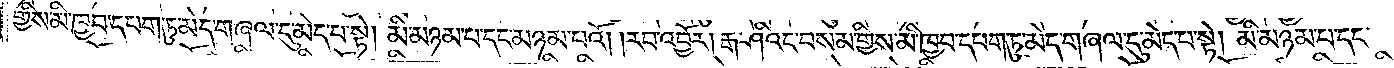གྱིས་མི་ཁྱབ་དཔག་ཏུ་མེད་གཞལ་དུ་མེད་པ་སྟེ། མི་མཉམ་པ་དང་མཉམ་པའོ། །རབ་འབྱོར། རྒ་ཤིའང་བསམ་གྱིས་མི་ཁྱབ་དཔག་ཏུ་མེད་གཞལ་དུ་མེད་པ་སྟེ། མི་མཉམ་པ་དང་
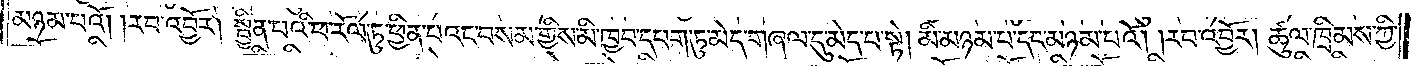མཉམ་པའོ། །རབ་འབྱོར། སྦྱིན་པའི་ཕ་རོལ་ཏུ་ཕྱིན་པའང་བསམ་གྱིས་མི་ཁྱབ་དཔག་ཏུ་མེད་གཞལ་དུ་མེད་པ་སྟེ། མི་མཉམ་པ་དང་མཉམ་པའོ། །རབ་འབྱོར། ཚུལ་ཁྲིམས་ཀྱི་
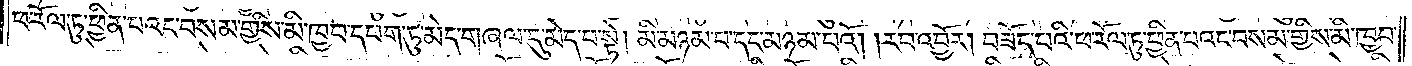ཕ་རོལ་ཏུ་ཕྱིན་པའང་བསམ་གྱིས་མི་ཁྱབ་དཔག་ཏུ་མེད་གཞལ་དུ་མེད་པ་སྟེ། མི་མཉམ་པ་དང་མཉམ་པའོ། །རབ་འབྱོར། བཟོད་པའི་ཕ་རོལ་ཏུ་ཕྱིན་པའང་བསམ་གྱིས་མི་ཁྱབ་
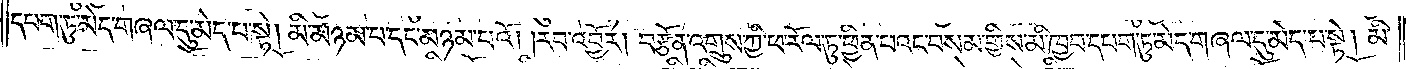དཔག་ཏུ་མེད་གཞལ་དུ་མེད་པ་སྟེ། མི་མཉམ་པ་དང་མཉམ་པའོ། །རབ་འབྱོར། བརྩོན་འགྲུས་ཀྱི་ཕ་རོལ་ཏུ་ཕྱིན་པའང་བསམ་གྱིས་མི་ཁྱབ་དཔག་ཏུ་མེད་གཞལ་དུ་མེད་པ་སྟེ། མི་
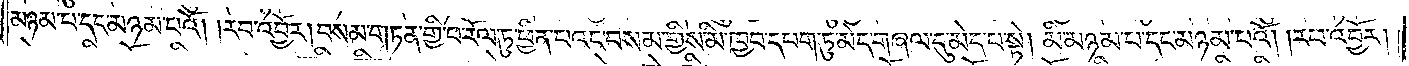མཉམ་པ་དང་མཉམ་པའོ། །རབ་འབྱོར། བསམ་གཏན་གྱི་ཕ་རོལ་ཏུ་ཕྱིན་པའང་བསམ་གྱིས་མི་ཁྱབ་དཔག་ཏུ་མེད་གཞལ་དུ་མེད་པ་སྟེ། མི་མཉམ་པ་དང་མཉམ་པའོ། །རབ་འབྱོར།
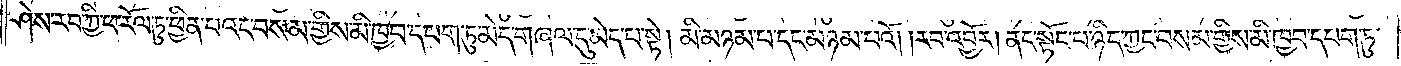ཤེས་རབ་ཀྱི་ཕ་རོལ་ཏུ་ཕྱིན་པའང་བསམ་གྱིས་མི་ཁྱབ་དཔག་ཏུ་མེད་གཞལ་དུ་མེད་པ་སྟེ། མི་མཉམ་པ་དང་མཉམ་པའོ། རབ་འབྱོར། ནང་སྟོང་པ་ཉིད་ཀྱང་བསམ་གྱིས་མི་ཁྱབ་དཔག་ཏུ་
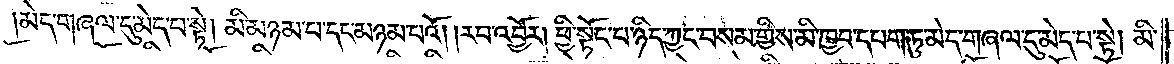མེད་གཞལ་དུ་མེད་པ་སྟེ། མི་མཉམ་པ་དང་མཉམ་པའོ། །རབ་འབྱོར། ཕྱི་སྟོང་པ་ཉིད་ཀྱང་བསམ་གྱིས་མི་ཁྱབ་དཔག་ཏུ་མེད་གཞལ་དུ་མེད་པ་སྟེ། མི་
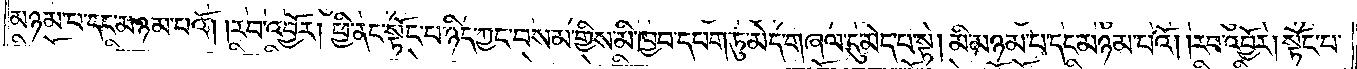མཉམ་པ་དང་མཉམ་པའོ། །རབ་འབྱོར། ཕྱི་ནང་སྟོང་པ་ཉིད་ཀྱང་བསམ་གྱིས་མི་ཁྱབ་དཔག་ཏུ་མེད་གཞལ་དུ་མེད་པ་སྟེ། མི་མཉམ་པ་དང་མཉམ་པའོ། །རབ་འབྱོར། སྟོང་པ་
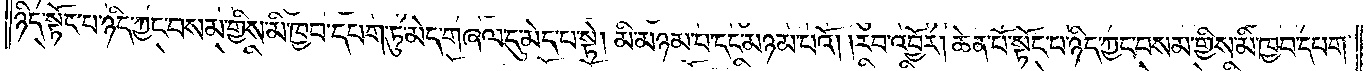ཉིད་སྟོང་པ་ཉིད་ཀྱང་བསམ་གྱིས་མི་ཁྱབ་དཔག་ཏུ་མེད་གཞལ་དུ་མེད་པ་སྟེ། མི་མཉམ་པ་དང་མཉམ་པའོ། །རབ་འབྱོར། ཆེན་པོ་སྟོང་པ་ཉིད་ཀྱང་བསམ་གྱིས་མི་ཁྱབ་དཔག་
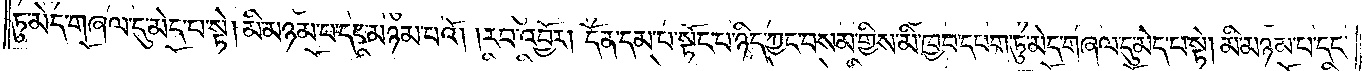ཏུ་མེད་གཞལ་དུ་མེད་པ་སྟེ། མི་མཉམ་པ་དང་མཉམ་པའོ། །རབ་འབྱོར། དོན་དམ་པ་སྟོང་པ་ཉིད་ཀྱང་བསམ་གྱིས་མི་ཁྱབ་དཔག་ཏུ་མེད་གཞལ་དུ་མེད་པ་སྟེ། མི་མཉམ་པ་དང་
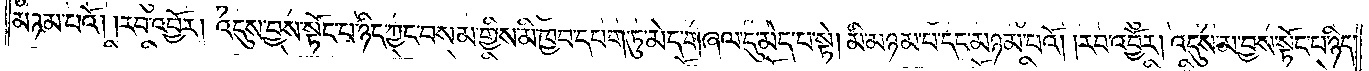མཉམ་པའོ། །རབ་འབྱོར། འདུས་བྱས་སྟོང་པ་ཉིད་ཀྱང་བསམ་གྱིས་མི་ཁྱབ་དཔག་ཏུ་མེད་གཞལ་དུ་མེད་པ་སྟེ། མི་མཉམ་པ་དང་མཉམ་པའོ། །རབ་འབྱོར། འདུས་མ་བྱས་སྟོང་པ་ཉིད་
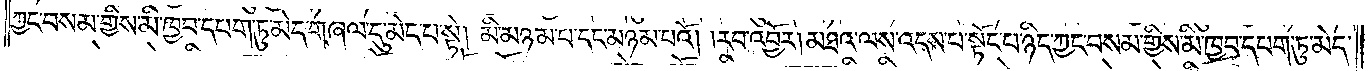ཀྱང་བསམ་གྱིས་མི་ཁྱབ་དཔག་ཏུ་མེད་གཞལ་དུ་མེད་པ་སྟེ། མི་མཉམ་པ་དང་མཉམ་པའོ། །རབ་འབྱོར། མཐའ་ལས་འདས་པ་སྟོང་པ་ཉིད་ཀྱང་བསམ་གྱིས་མི་ཁྱབ་དཔག་ཏུ་མེད་
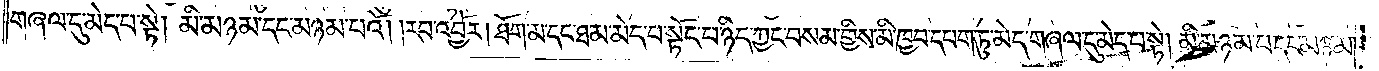གཞལ་དུ་མེད་པ་སྟེ། མི་མཉམ་པ་དང་མཉམ་པའོ། །རབ་འབྱོར། ཐོག་མ་དང་ཐ་མ་མེད་པ་སྟོང་པ་ཉིད་ཀྱང་བསམ་གྱིས་མི་ཁྱབ་དཔག་ཏུ་མེད་གཞལ་དུ་མེད་པ་སྟེ། མི་མཉམ་པ་དང་མཉམ་
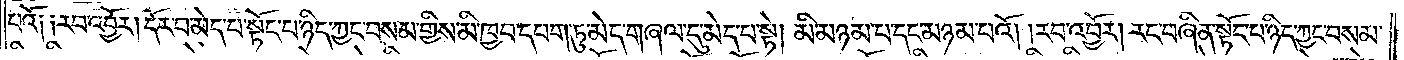པའོ༑ ༑རབ་འབྱོར། དོར་བ་མེད་པ་སྟོང་པ་ཉིད་ཀྱང་བསམ་གྱིས་མི་ཁྱབ་དཔག་ཏུ་མེད་གཞལ་དུ་མེད་པ་སྟེ། མི་མཉམ་པ་དང་མཉམ་པའོ། །རབ་འབྱོར། རང་བཞིན་སྟོང་པ་ཉིད་ཀྱང་བསམ་
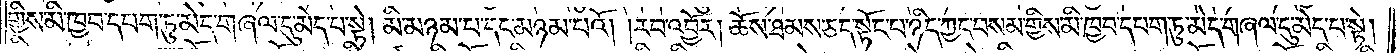གྱིས་མི་ཁྱབ་དཔག་ཏུ་མེད་གཞལ་དུ་མེད་པ་སྟེ། མི་མཉམ་པ་དང་མཉམ་པའོ། །རབ་འབྱོར། ཆོས་ཐམས་ཅད་སྟོང་པ་ཉིད་ཀྱང་བསམ་གྱིས་མི་ཁྱབ་དཔག་ཏུ་མེད་གཞལ་དུ་མེད་པ་སྟེ།
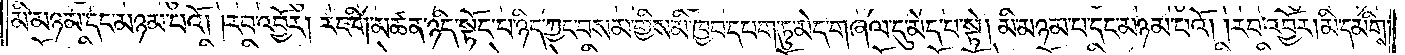མི་མཉམ་པ་དང་མཉམ་པའོ། །རབ་འབྱོར། རང་གི་མཚན་ཉིད་སྟོང་པ་ཉིད་ཀྱང་བསམ་གྱིས་མི་ཁྱབ་དཔག་ཏུ་མེད་གཞལ་དུ་མེད་པ་སྟེ། མི་མཉམ་པ་དང་མཉམ་པའོ། །རབ་འབྱོར། མི་དམིགས་
